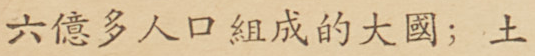六億多人口組成的大國；土
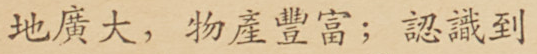地廣大，物產豐富；認識到
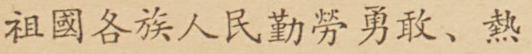祖國各族人民勤勞勇敢、熱
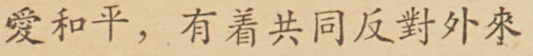愛和平，有着共同反對外來
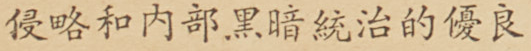侵略和內部黑暗統治的優良
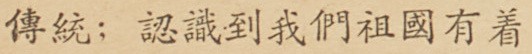傳統；認識到我們祖國有着
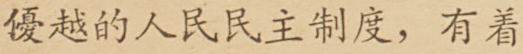優越的人民民主制度，有着
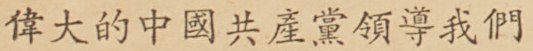偉大的中國共產黨領導我們
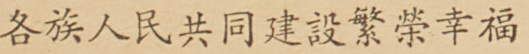各族人民共同建設繁榮幸福
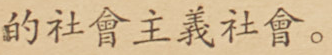的社會主義社會。
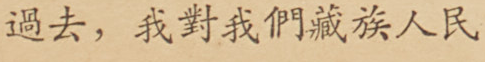過去，我對我們藏族人民
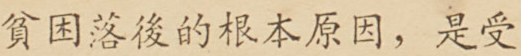貧困落後的根本原因，是受
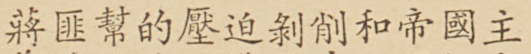蔣匪幫的壓迫剝削和帝國主
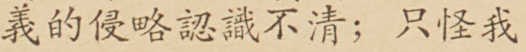義的侵略認識不清；只怪我
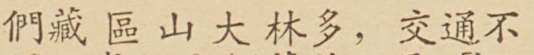們藏區山大林多，交通不
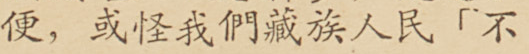便，或怪我們藏族人民「不
